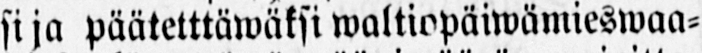si ja päätetttäwäksi waltiopäiwämieswaa-
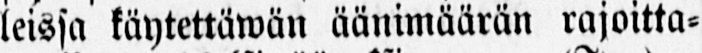leissa käytettäwän äänimäärän rajoitta-
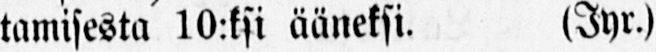tamisesta 10:ksi ääneksi. (Jyr.)
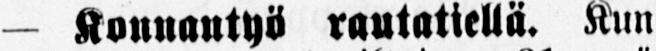- Konnantyö rautatiellä. Kun
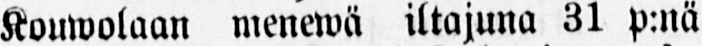Kouwolaan menewä iltajuna 31 p:nä
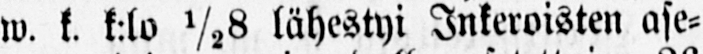w. k. k:lo ½8 lähestyi Inkeroisten ase-
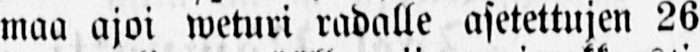maa ajoi weturi radalle asetettujen 26
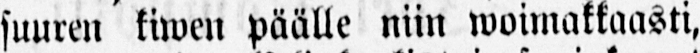suuren kiwen päälle niin woimakkaasti,
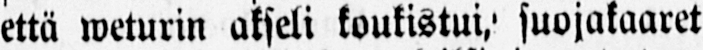että weturin akseli koukistui, suojakaaret
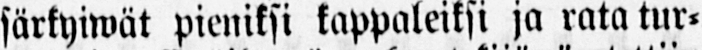särkyiwät pieniksi kappaleiksi ja rata tur-
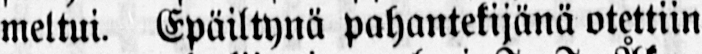meltui. Epäiltynä pahantekijänä otettiin
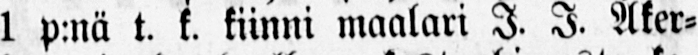1 p:nä t. k. kiinni maalari I. J. Åker-
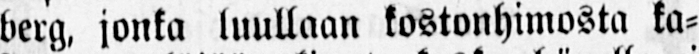berg, jonka luullaan kostonhimosta ka-
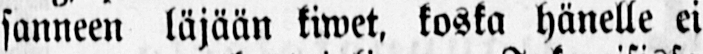sanneen läjään kiwet, koska hänelle ei
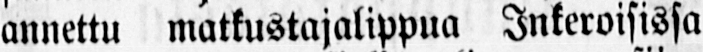annettu matkustajalippua Inkeroisissa
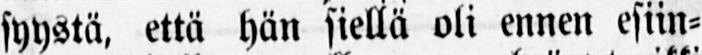syystä, että hän siellä oli ennen esiin-
